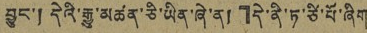བྱུང་། དེའི་རྒྱུ་མཚན་ཅི་ཡིན་ཞེ་ན།』དེ་ནི་ཏ་ཙི་པོ་ཞིག
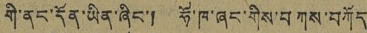གི་ནང་དོན་ཡིན་ཞིང་། ཧོ་ཁ་ཞང་གིས་བཀས་བཀོད
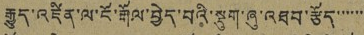རྒྱུད་འཛིན་ལ་ངོ་རྒོལ་བྱེད་པའི་སྡུག་ཞུ་འཐབ་རྩོད་་་་་་་
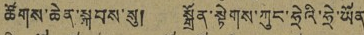ཚོགས་ཆེན་སྐབས་སུ། སྒྲོན་སྟེགས་ཀུང་ཧྲེའི་ཧྲེ་ཡོན
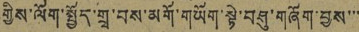གྱིས་ལོག་སྤྱོད་གྲྭ་བས་མགོ་གཡོག་སྟེ་བཤུ་གཞོག་བྱས་་་་
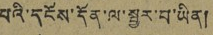པའི་དངོས་དོན་ལ་སྦྱར་བ་ཡིན།
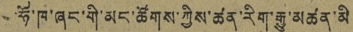ཧོ་ཁ་ཞང་གི་མང་ཚོགས་ཀྱིས་ཚན་རིག་རྒྱུ་མཚན་མི
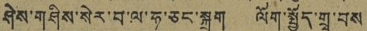ཤེས་གཤིས་སེར་བ་ལ་ཧ་ཅང་སྐྲག ལོག་སྤྱོད་གྲྭ་བས
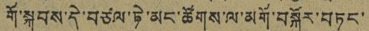གོ་སྐབས་དེ་བཙལ་ཏེ་མང་ཚོགས་ལ་མགོ་བསྐོར་བཏང་
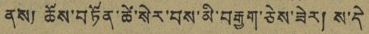ནས། ཆོས་བཏོན་ཚེ་སེར་བས་མི་བརྒྱག་ཅེས་ཟེར། ས་དེ
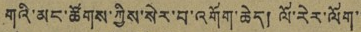གའི་མང་ཚོགས་ཀྱིས་སེར་བ་འགོག་ཆེད། ལོ་རེར་ལོག་་
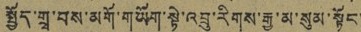སྤྱོད་གྲྭ་བས་མགོ་གཡོག་སྟེ་འབྲུ་རིགས་རྒྱ་མ་སུམ་སྟོང་
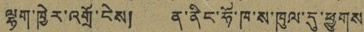ལྷག་ཁྱེར་འགྲོ་ངེས། ན་ནིང་ཧོ་ཁ་ས་ཁུལ་དུ་ཕྱུགས
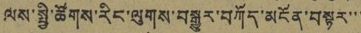ལས་སྤྱི་ཚོགས་རིང་ལུགས་བསྒྱུར་བཀོད་མངོན་བསྟར་་་
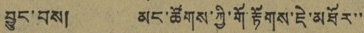བྱུང་བས། མང་ཚོགས་ཀྱི་གོ་རྟོགས་ཇེ་མཐོར་་
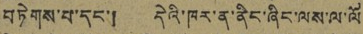བཏེགས་པ་དང་། དེའི་ཁར་ན་ནིང་ཞིང་ལས་ལ་ལོ
